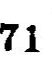71
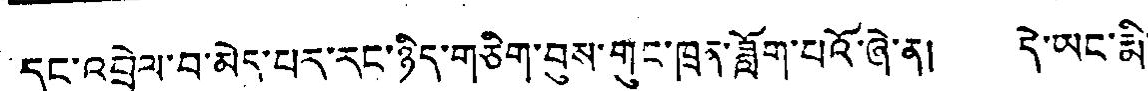དང་འབྲེལ་བ་མེད་པར་རང་ཉིད་གཅིག་བུས་གུང་ཁྲན་ཟློག་པའོ་ཞེ་ན། དེ་ཡང་རྨི་
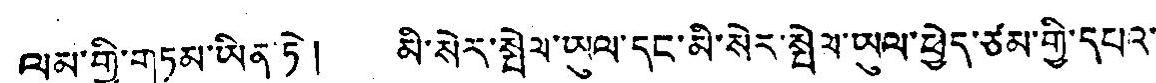ལམ་གྱི་གཏམ་ཡིན་ཏེ། མི་སེར་སྤེལ་ཡུལ་དང་མི་སེར་སྤེལ་ཡུལ་ཕྱེད་ཙམ་གྱི་དཔའ་
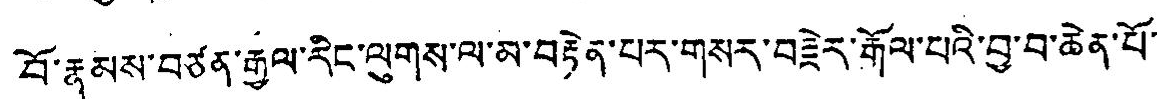བོ་རྣམས་བཙན་རྒྱལ་རིང་ལུགས་ལ་མ་བརྟེན་པར་གསར་བརྗེར་རྒོལ་པའི་བྱ་བ་ཆེན་པོ་
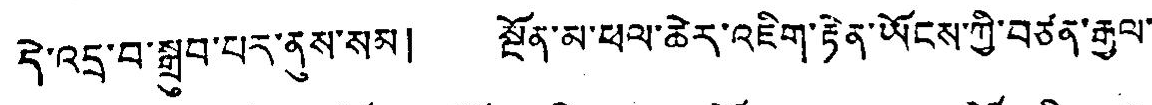དེ་འདྲ་བ་སྒྲུབ་པར་ནུས་སམ། སྔོན་མ་ཕལ་ཆེར་འཇིག་རྟེན་ཡོངས་ཀྱི་བཙན་རྒྱལ་
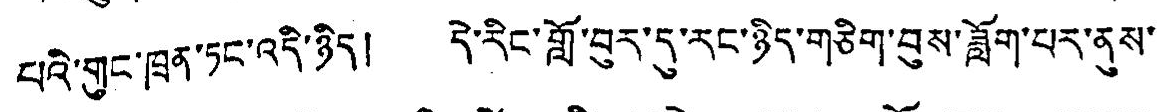པའི་གུང་ཁྲན་ཏང་འདི་ཉིད། དེ་རིང་གློ་བུར་དུ་རང་ཉིད་གཅིག་བུས་ཟློག་པར་ནུས་
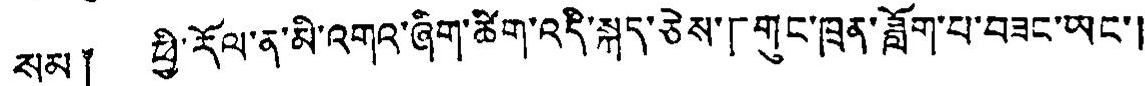སམ༐ ཕྱི་རོལ་ན་མི་འགའ་ཞིག་ཚིག་འདི་སྐད་ཅེས་「གུང་ཁྲན་ཟློག་པ་བཟང་ཡང་།
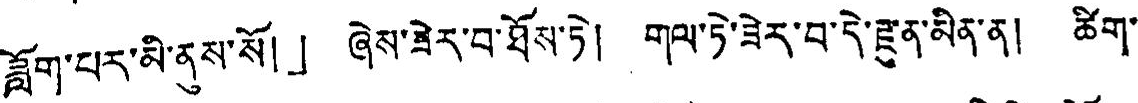ཟློག་པར་མི་ནུས་སོ།」ཞེས་ཟེར་བ་ཐོས་ཏེ། གལ་ཏེ་ཟེར་བ་དེ་རྫུན་མིན་ན། ཚིག་
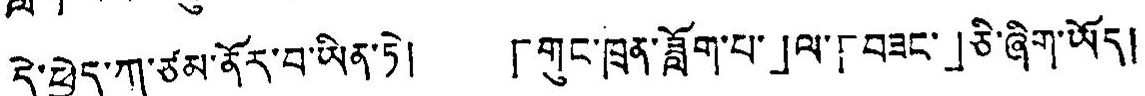དེ་ཕྱེད་ཀ་ཙམ་ནོར་བ་ཡིན་ཏེ། 「གུང་ཁྲན་ཟློག་པ་」ལ་「བཟང་」ཅི་ཞིག་ཡོད།
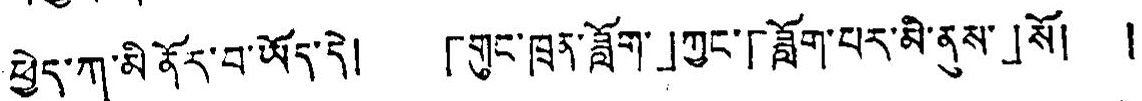ཕྱེད་ཀྱ་མི ནོར་བ་ཡོད་དེ། 「གུང་ཁྲན་ཟློག་」ཀྱང་「ཟློག་པར་མི་ནུས་」སོ། །
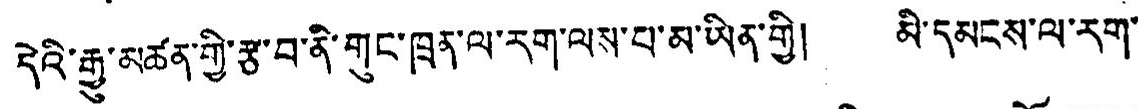དེའི་རྒྱུ་མཚན་གྱི་རྩ་བ་ནི་གུང་ཁྲན་ལ་རག་ལས་པ་མ་ཡིན་གྱི། མི་དམངས་ལ་རག་
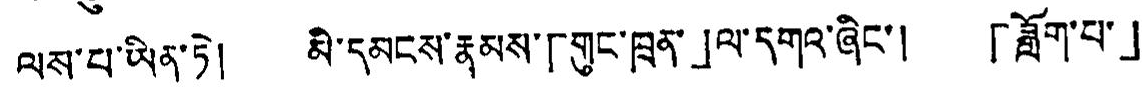ལས་པ་ཡིན་ཏེ། མི་དམངས་རྣམས་「གུང་ཁྲན་」ལ་དགའ་ཞིང་། 「ཟློག་པ་」
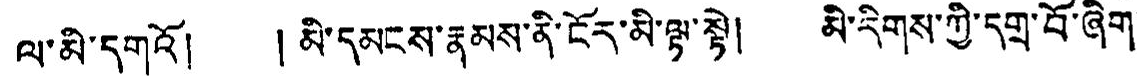ལ་མི་དགའོ། །མི་དམངས་རྣམས་ནི་ངོར་མི་ལྟ་སྟེ། མི་རིགས་ཀྱི་དགྲ་བོ་ཞིག
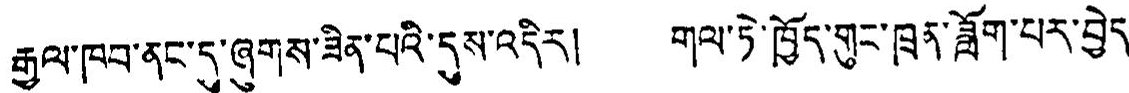རྒྱལ་ཁབ་ནང་དུ་ཞུགས་ཟིན་པའི་དུས་འདིར། གལ་ཏེ་ཁྱོད་གུང་ཁྲན་ཟློག་པར་བྱེད་
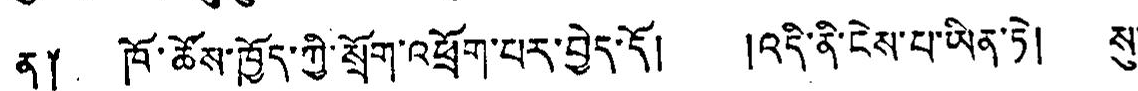ན༐ ཁོ་ཚོས་ཁྱོད་ཀྱི་སྲོག་འཕྲོག་པར་བྱེད་དོ། །འདི་ནི་ངེས་པ་ཡིན་ཏེ། སུ་
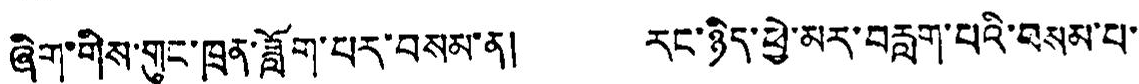ཞིག་གིས་གུང་ཁྲན་ཟློག་པར་བསམ་ན། རང་ཉིད་ཕྱེ་མར་བརླག་པའི་བསམ་པ་
